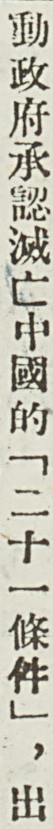動政府承認滅亡中國的「二十一條件」，出
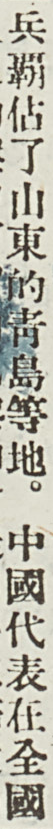兵霸佔了山東的靑島等地。中國代表在全國
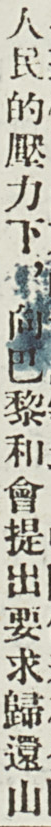人民的壓力下，向巴黎和會提出要求歸還山
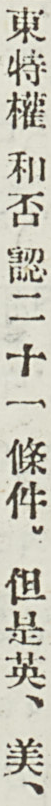東特權和否認二十一條件。但是英、美、
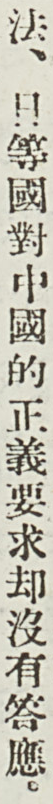法、日等國對中國的正義要求却沒有答應。
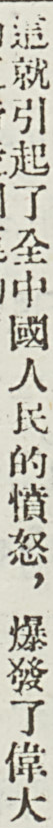這就引起了全中國人民的憤怒，爆發了偉大
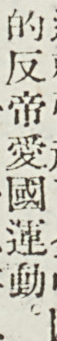的反帝愛國運動。
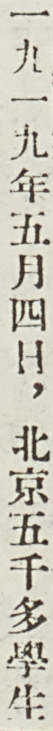一九一九年五月四日，北京五千多學生
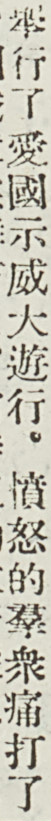舉行了愛國示威大遊行。憤怒的羣衆痛打了
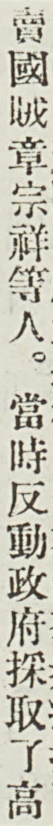賣國賊章宗祥等人。當時反動政府採取了高
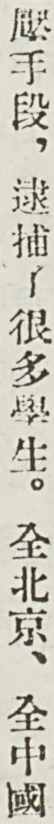壓手段，逮捕了很多學生。全北京、全中國
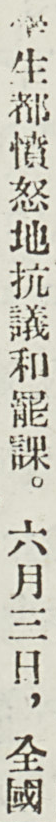學生都憤怒地抗議和罷課。六月三日，全國
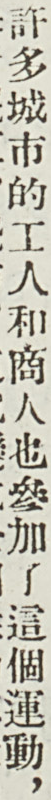許多城市的工人和尚人也參加了這個運動，
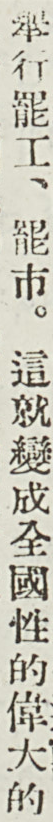舉行罷工、罷市。這就變成全國性的偉大的
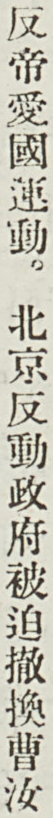反帝愛國運動。北京反動政府被迫撤換曹汝
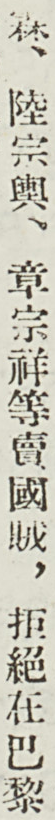霖、陸宗輿、章宗祥等賣國賊，拒絕在巴黎
